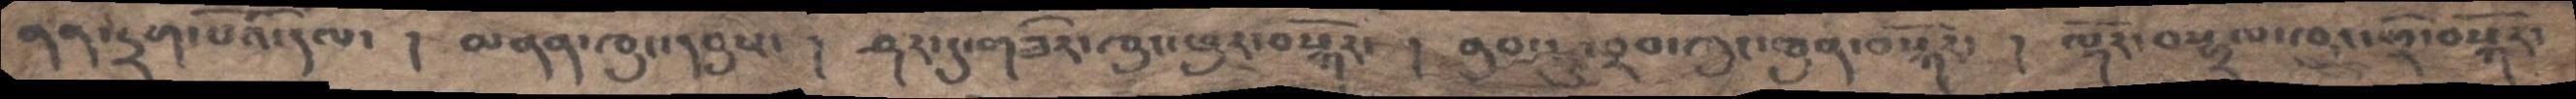ནན་དྲག་པོའི་དལ་ ། མནན་ཁུང་དབུས་ ། ཤར་དུ་གཟེར་ཁུང་ཕུར་བསྐོར་ ། ནུབ་ཏུ་བྲབ་ཁུང་ཐུན་བསྐོར་  ། ལྷོར་བསྒྲལ་ཁུང་གྲོ་བསྐོར་
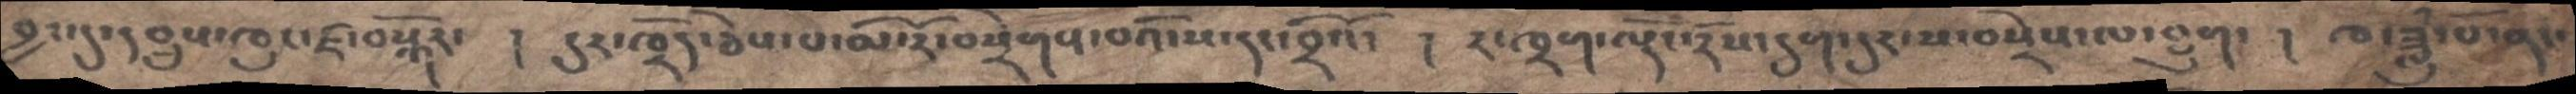བྱང་དུ་དབྲུས་ཁུང་ཛ་བསྐོར་  །  དུར་ཁྲོད་ཅེས་པ་མེ་རོ་བསྲེགས་བའི་ས་དང་བྲིའོ་  །  ར་ཁྲག་ལྡོང་རོས་དུག་དུར་ས་བསྲེས་ལ་བྱུག་  །  ཁ་ཟླུཾ་པོ་ནང་
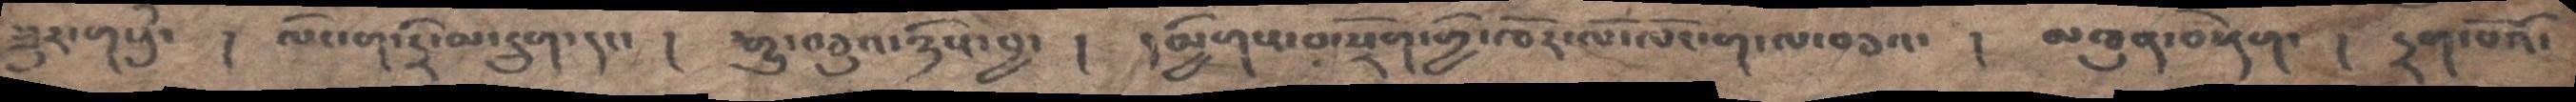ཟུར་གསུཾ་  །  ལོང་ག་དྲི་མ་དྲུག་དང་  །  རྒྱུ་བཅུའ་ཉིས་བྱ་  །  དམྱིགས་བ་སྲོག་གྱི་ཁོར་ལོ་ལོང་ག་ལ་བཅའ་  །  མཐུན་བརྡེག་   །   དྲག་པོའོ་
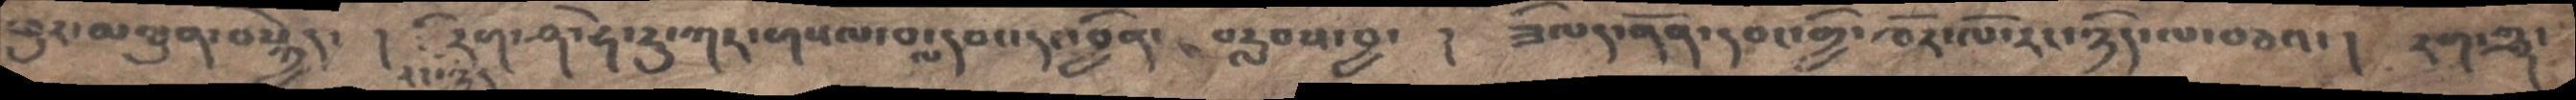ཕུར་མཐུན་བསྐྱེད་ ། རང་ཉིད་རིག་ཤ་ཧེ་རུ་ཀར་གསལ་བ་ལ་དབང་དང་བྱིན་བརླབས་བྱ་  །  ཟིལད་ནོན་དབང་གྱི་ཁོར་ལོ་རང་ཉིད་ལ་བཅའ་། རག་ཀྵ་
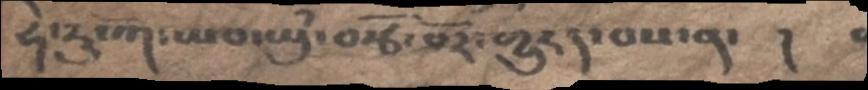ཧེ་རུ་ཀ་ཡབ་ཡུཾ་བརྩོ་བོར་གྱུརད་བས་ན་ །
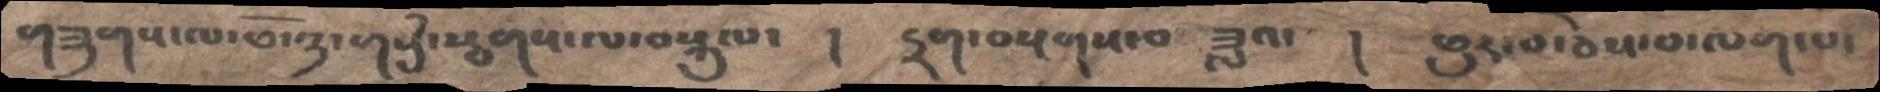གཟུགས་ལ་ཕོ་ཉ་གསུཾ་སྦགས་ལ་བསྐུལ་  ། དྲག་བསྔགས་བ ཟླའ་ ། ཕུར་བ་ཅེས་བ་ལག་པ་
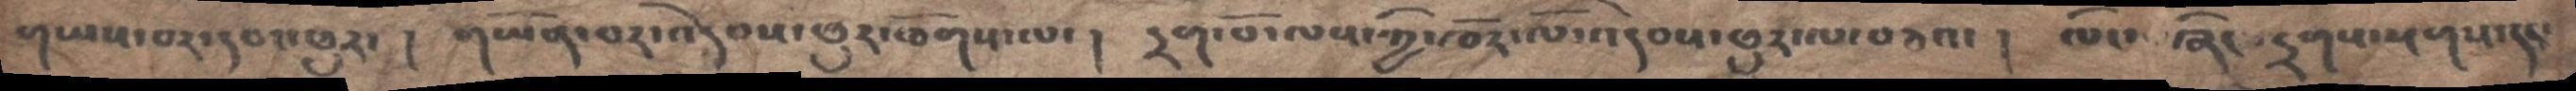གཡས་བར་དབང་ཕུར་ ། གཡོན་བར་འདེབས་ཕུར་ཐོགས་ལ་། དྲག་པོ་ལས་ཀྱི་ཁོར་ལོ་འདེབས་ཕུར་ལ་བཅའ་། ལོང་ཞིང་དྲགས་སྔགས་དང་
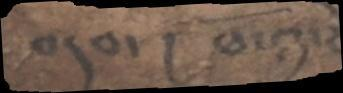བདབ་ ། ཕོ་ཉ་
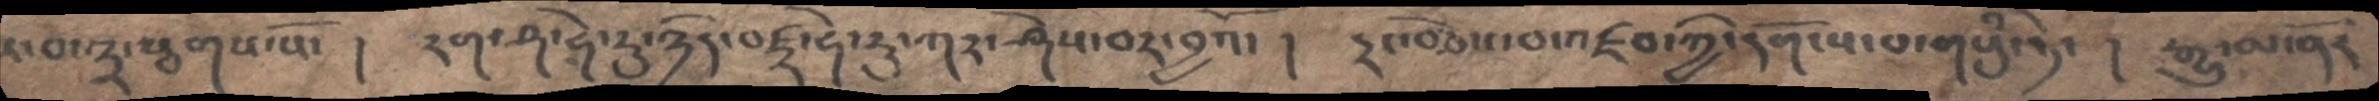ར་བ་༣་རྩགས་སོ་།  རག་ཤ་ཧེ་རུ་ཉིད་བཛྲ་ཧེ་རུ་ཀར་ཤེས་བར་བྱའོ་ ། དྲང་བཅེས་པ་འཛབ་ཀྱི་དགོངས་པ་གསུཾ་ཏེ་ ། རྒྱུ་མ་ནོར་
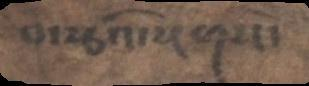བ་རྩའི་སྔགས་
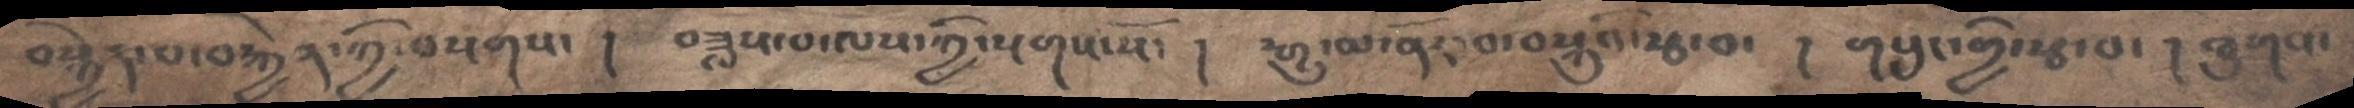བསྐྱེད་པ་བརྐྱེན་ཀྱི་བསྔགས་ །  བཟླས་པ་ལས་ཀྱི་སྔགས་སོ་  །  སྒྱུ་མ་ནོར་བ་བསྐུའི་རྩ་བ་  །  གསུང་གྱི་རྩ་བ་།  ཐུགས་
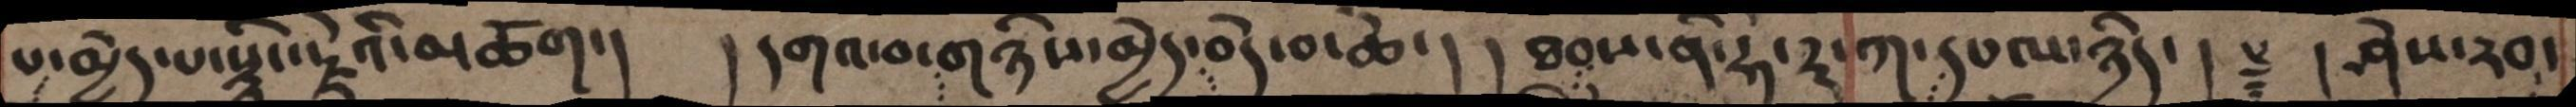པ་མྱེད་པ་སྙིང་རྗེའི་མཆོག་། །དགའ་བ་གཉིས་མྱེད་བདེ་བ་ཆེ་། །ཐབས་ནི་ཧེ་རུ་ཀ་དཔལ་ཉིད་། ༈ །ཤེས་རབ་
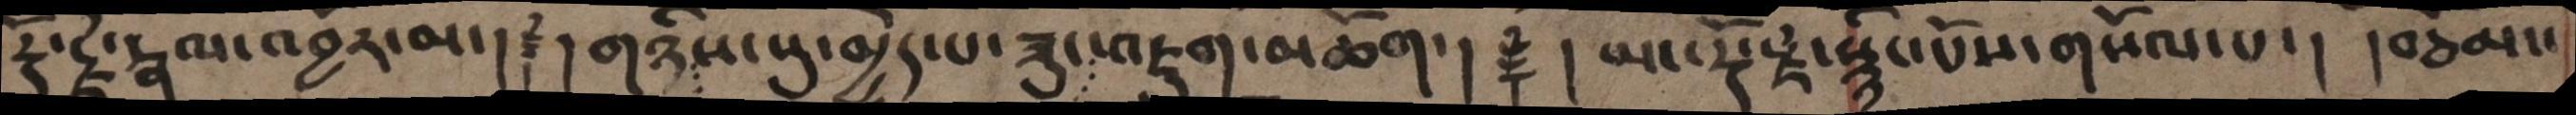རྡོ་རྗེ་རྣལ་འབྱོར་མ་།  ༈ །གཉིས་སུ་མྱེད་པ་ཟུང་འཇུག་མཆོག་། ༈ །ཡང་རྡོ་རྗེ་སྙིང་པོས་གསོལ་པ་། །བཅོམ་་
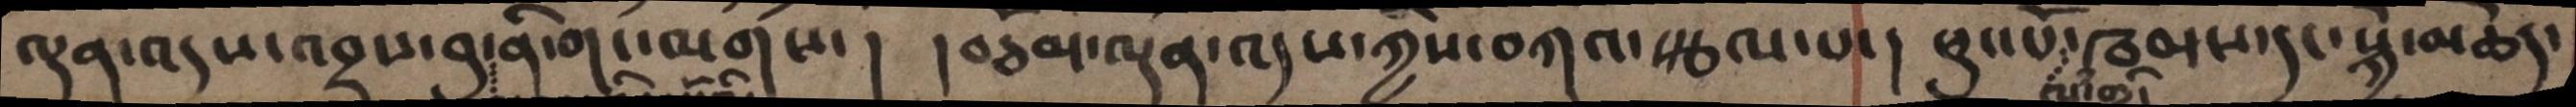ལྡན་འདས་འབྲས་བུ་ནི་གང་ལགས་ ། །བཅོམ་ལྡན་འདས་ཀྱིས་བཀའ་སྩལ་པ་། ཕུང་པོ་ལཾ་གྱི་ཁམས་དང་སྐྱེ་མཆེད་
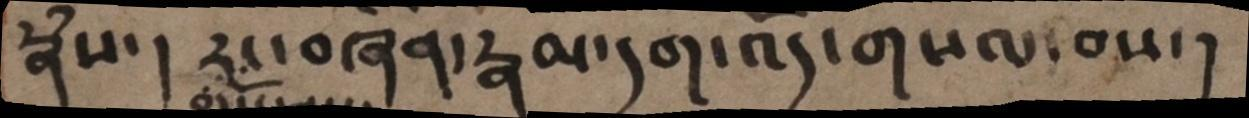རྣཾས་ ། རང་བཞིན་རྣམ་དག་འོད་གསལ་བས་།
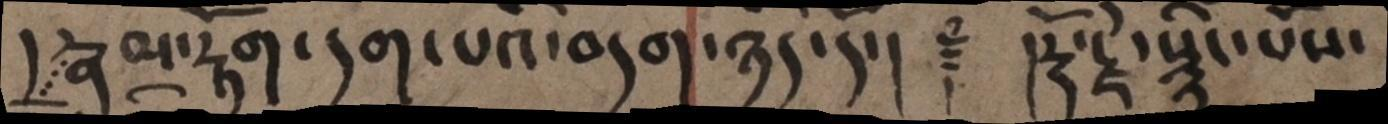ད་རྣམ་རྟོག་དག་པའི་བདག་ཉིད་དོ་། ༈ རྡོ་རྗེ་སྙིང་པོས་
